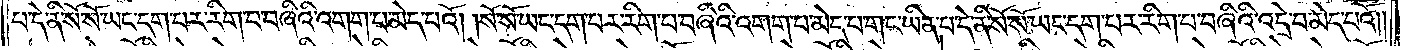པ་དེ་ནི་སོ་སོ་ཡང་དག་པར་རིག་པ་བཞིའི་འགག་པ་མེད་པའོ། །སོ་སོ་ཡང་དག་པར་རིག་པ་བཞིའི་འགག་པ་མེད་པ་གང་ཡིན་པ་དེ་ནི་སོ་སོ་ཡང་དག་པར་རིག་པ་བཞིའི་འདྲེ་བ་མེད་པའོ༎
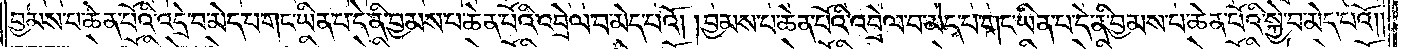བྱམས་པ་ཆེན་པོའི་འདྲེ་བ་མེད་པ་གང་ཡིན་པ་དེ་ནི་བྱམས་པ་ཆེན་པོའི་འབྲེལ་བ་མེད་པའོ། །བྱམས་པ་ཆེན་པོའི་འབྲེལ་བ་མེད་པ་གང་ཡིན་པ་དེ་ནི་བྱམས་པ་ཆེན་པོའི་སྐྱེ་བ་མེད་པའོ༎
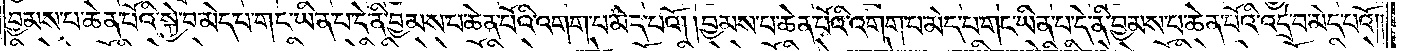བྱམས་པ་ཆེན་པོའི་སྐྱེ་བ་མེད་པ་གང་ཡིན་པ་དེ་ནི་བྱམས་པ་ཆེན་པོའི་འགག་པ་མེད་པའོ། །བྱམས་པ་ཆེན་པོའི་འགག་པ་མེད་པ་གང་ཡིན་པ་དེ་ནི་བྱམས་པ་ཆེན་པོའི་འདྲེ་བ་མེད་པའོ༎
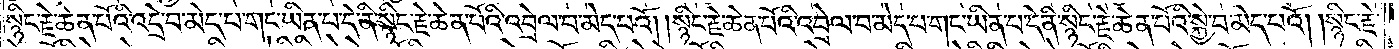སྙིང་རྗེ་ཆེན་པོའི་འདྲེ་བ་མེད་པ་གང་ཡིན་པ་དེ་ནི་སྙིང་རྗེ་ཆེན་པོའི་འབྲེལ་བ་མེད་པའོ། །སྙིང་རྗེ་ཆེན་པོའི་འབྲེལ་བ་མེད་པ་གང་ཡིན་པ་དེ་ནི་སྙིང་རྗེ་ཆེན་པོའི་སྐྱེ་བ་མེད་པའོ། །སྙིང་རྗེ་
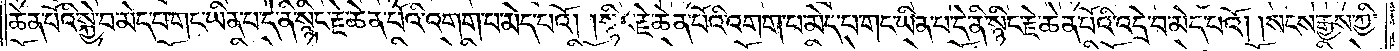ཆེན་པོའི་སྐྱེ་བ་མེད་པ་གང་ཡིན་པ་དེ་ནི་སྙིང་རྗེ་ཆེན་པོའི་འགག་པ་མེད་པའོ། །སྙིང་རྗེ་ཆེན་པོའི་འགག་པ་མེད་པ་གང་ཡིན་པ་དེ་ནི་སྙིང་རྗེ་ཆེན་པོའི་འདྲེ་བ་མེད་པའོ། །སངས་རྒྱས་ཀྱི་
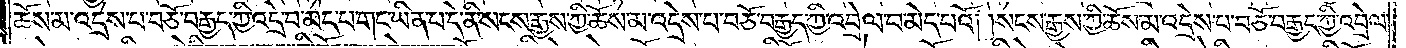ཆོས་མ་འདྲེས་པ་བཅོ་བརྒྱད་ཀྱི་འདྲེ་བ་མེད་པ་གང་ཡིན་པ་དེ་ནི་སངས་རྒྱས་ཀྱི་ཆོས་མ་འདྲེས་པ་བཅོ་བརྒྱད་ཀྱི་འབྲེལ་བ་མེད་པའོ། །སངས་རྒྱས་ཀྱི་ཆོས་མ་འདྲེས་པ་བཅོ་བརྒྱད་ཀྱི་འབྲེལ་
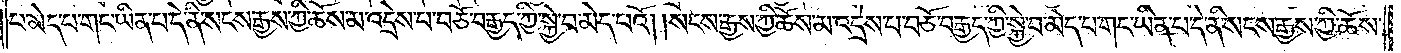པ་མེད་པ་གང་ཡིན་པ་དེ་ནི་སངས་རྒྱས་ཀྱི་ཆོས་མ་འདྲེས་པ་བཅོ་བརྒྱད་ཀྱི་སྐྱེ་བ་མེད་པའོ། །སངས་རྒྱས་ཀྱི་ཆོས་མ་འདྲེས་པ་བཅོ་བརྒྱད་ཀྱི་སྐྱེ་བ་མེད་པ་གང་ཡིན་པ་དེ་ནི་སངས་རྒྱས་ཀྱི་ཆོས་
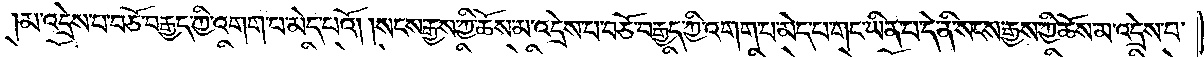མ་འདྲེས་པ་བཅོ་བརྒྱད་ཀྱི་འགག་པ་མེད་པའོ། །སངས་རྒྱས་ཀྱི་ཆོས་མ་འདྲེས་པ་བཅོ་བརྒྱད་ཀྱི་འགག་པ་མེད་པ་གང་ཡིན་པ་དེ་ནི་སངས་རྒྱས་ཀྱི་ཆོས་མ་འདྲེས་པ་
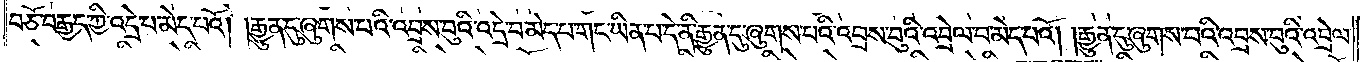བཅོ་བརྒྱད་ཀྱི་འདྲེ་པ་མེད་པའོ། །རྒྱུན་དུ་ཞུགས་པའི་འབྲས་བུའི་འདྲེ་བ་མེད་པ་གང་ཡིན་པ་དེ་ནི་རྒྱུན་དུ་ཞུགས་པའི་འབྲས་བུའི་འབྲེལ་བ་མེད་པའོ། །རྒྱུན་དུ་ཞུགས་པའི་འབྲས་བུའི་འབྲེལ་
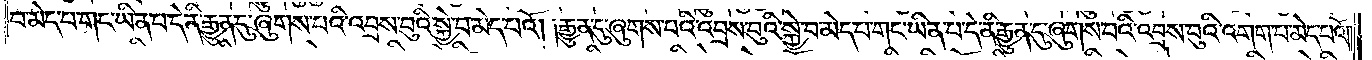བ་མེད་པ་གང་ཡིན་པ་དེ་ནི་རྒྱུན་དུ་ཞུགས་པའི་འབྲས་བུའི་སྐྱེ་བ་མེད་པའོ། །རྒྱུན་དུ་ཞུགས་པའི་འབྲས་བུའི་སྐྱེ་བ་མེད་པ་གང་ཡིན་པ་དེ་ནི་རྒྱུན་དུ་ཞུགས་པའི་འབྲས་བུའི་འགག་པ་མེད་པའོ༎
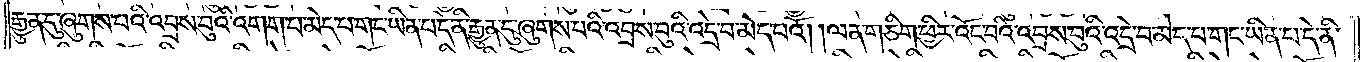རྒྱུན་དུ་ཞུགས་པའི་འབྲས་བུའི་འགག་པ་མེད་པ་གང་ཡིན་པ་དེ་ནི་རྒྱུན་དུ་ཞུགས་པའི་འབྲས་བུའི་འདྲེ་བ་མེད་པའོ། །ལན་གཅིག་ཕྱིར་འོང་བའི་འབྲས་བུའི་འདྲེ་བ་མེད་པ་གང་ཡིན་པ་དེ་ནི་
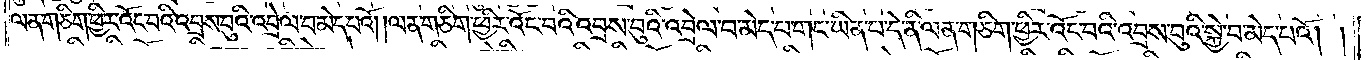ལན་གཅིག་ཕྱིར་འོང་བའི་འབྲས་བུའི་འབྲེལ་པ་མེད་པའོ། །ལན་གཅིག་ཕྱིར་འོང་བའི་འབྲས་བུའི་འབྲེལ་པ་མེད་པ་གང་ཡིན་པ་དེ་ནི་ལན་གཅིག་ཕྱིར་འོང་བའི་འབྲས་བུའི་སྐྱེ་བ་མེད་པའོ༎
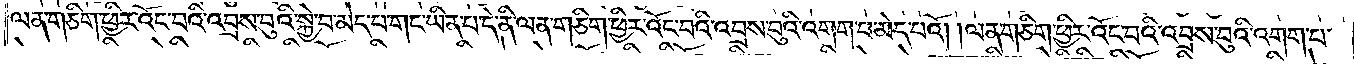ལན་གཅིག་ཕྱིར་འོང་བའི་འབྲས་བུའི་སྐྱེ་བ་མེད་པ་གང་ཡིན་པ་དེ་ནི་ལན་གཅིག་ཕྱིར་འོང་བའི་འབྲས་བུའི་འགག་པ་མེད་པའོ། །ལན་གཅིག་ཕྱིར་འོང་བའི་འབྲས་བུའི་འགག་པ་
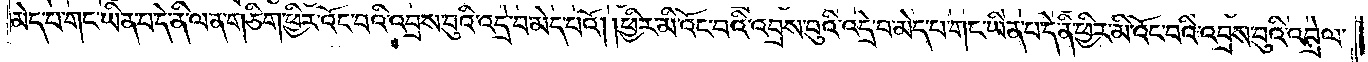མེད་པ་གང་ཡིན་པ་དེ་ནི་ལན་ཅིག་ཕྱིར་འོང་བའི་འབྲས་བུའི་འདྲེ་བ་མེད་པའོ། །ཕྱིར་མི་འོང་བའི་འབྲས་བུའི་འདྲེ་བ་མེད་པ་གང་ཡིན་པ་དེ་ནི་ཕྱིར་མི་འོང་བའི་འབྲས་བུའི་འབྲེལ་
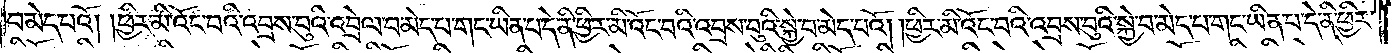བ་མེད་པའོ། །ཕྱིར་མི་འོང་བའི་འབྲས་བུའི་འབྲེལ་པ་མེད་པ་གང་ཡིན་པ་དེ་ནི་ཕྱིར་མི་འོང་བའི་འབྲས་བུའི་སྐྱེ་བ་མེད་པའོ། །ཕྱིར་མི་འོང་བའི་འབྲས་བུའི་སྐྱེ་བ་མེད་པ་གང་ཡིན་པ་དེ་ནི་ཕྱིར་
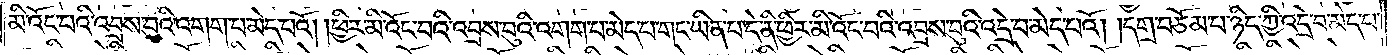མི་འོང་བའི་འབྲས་བུའི་འགག་པ་མེད་པའོ། །ཕྱིར་མི་འོང་བའི་འབྲས་བུའི་འགག་པ་མེད་པ་གང་ཡིན་པ་དེ་ནི་ཕྱིར་མི་འོང་བའི་འབྲས་བུའི་འདྲེ་བ་མེད་པའོ། །དགྲ་བཅོམ་པ་ཉིད་ཀྱི་འདྲེ་བ་མེད་པ་
